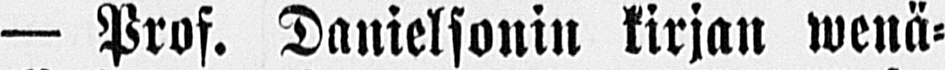— Prof. Danielsonin kirjan wenä-
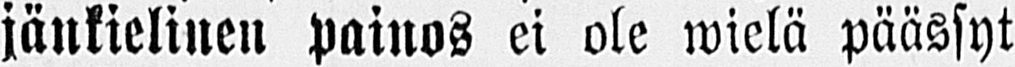jänkielinen painos ei ole wielä päässyt
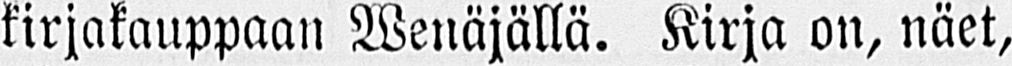kirjakauppaan Wenäjällä. Kirja on, näet,
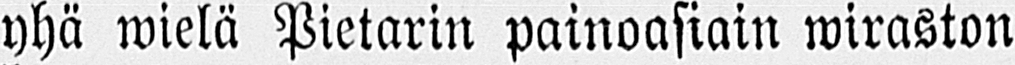yhä wielä Pietarin painoasiain wiraston
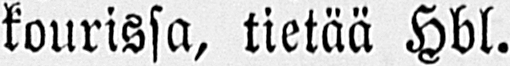kourissa, tietää Hbl.
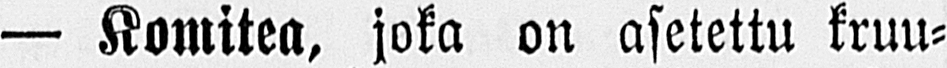— Komitea, joka on asetettu kruu-
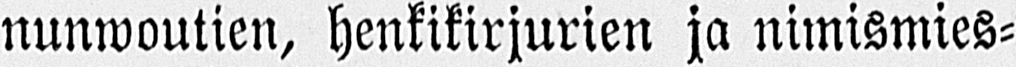nunwoutien, henkikirjurien ja nimismies-
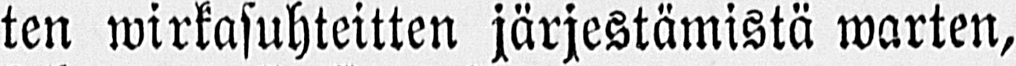ten wirkasuhteitten järjestämistä warten,
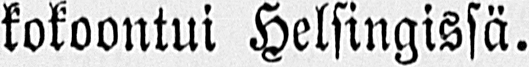kokoontui Helsingissä.
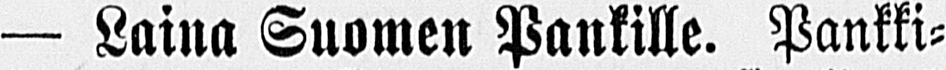— Laina Suomen Pankille. Pankki-
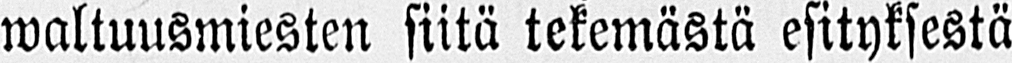waltuusmiesten siitä tekemästä esityksestä
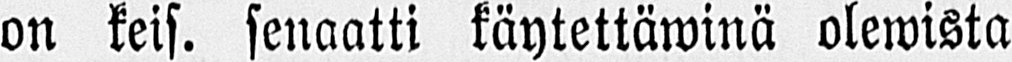on keis. senaatti käytettäwinä olewista
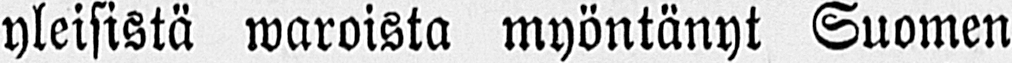yleisistä waroista myöntänyt Suomen
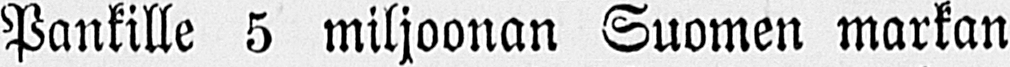Pankille 5 miljoonan Suomen markan
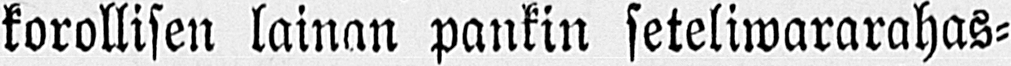korollisen lainan pankin seteliwararahas-
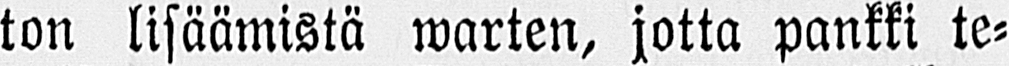ton lisäämistä warten, jotta pankki te-
